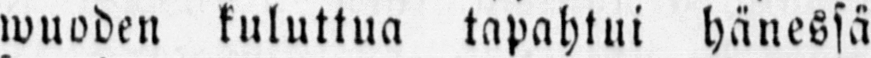wuoden kuluttua tapahtui hänessä
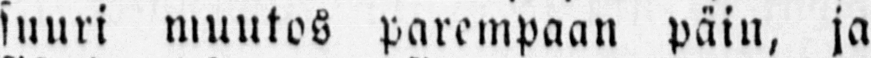suuri muutos parempaan päin, ja
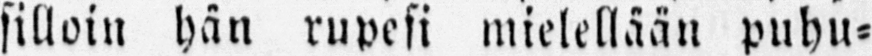silloin hän rupesi mielellään puhu-
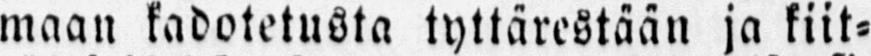maan kadotetusta tyttärestään ja kiit-
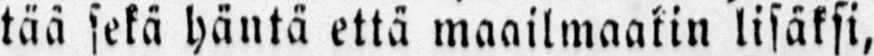tää sekä häntä että maailmaakin lisäksi,
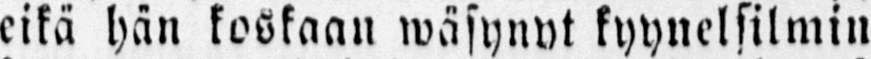eikä hän koskaan wäsynyt kyynelsilmin
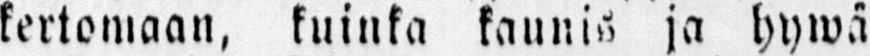kertomaan, kuinka kaunis ja hywä
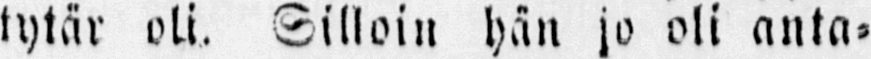tytär oli. Silloin hän jo oli anta-
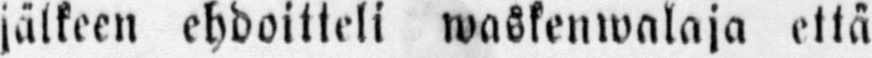jälkeen ehdoitteli waskenwalaja että
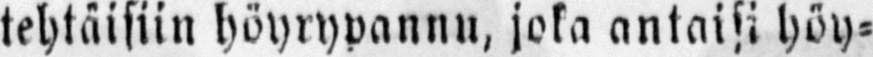tehtäisiin höyrypannu, joka antaisi höy-
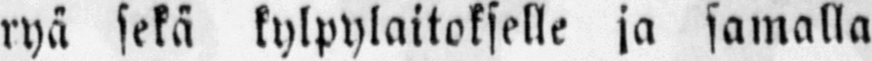ryä sekä kylpylaitokselle ja samalla
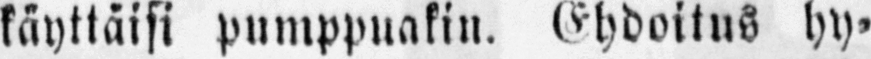käyttäisi pumppuakin. Ehdoitus hy-
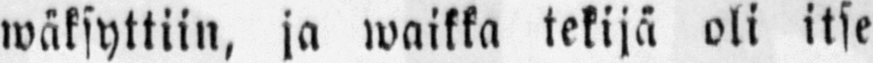wäksyttiin, ja waikka tekijä oli itse
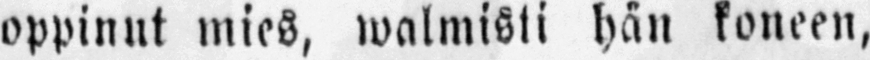oppinut mies, walmisti hän koneen,
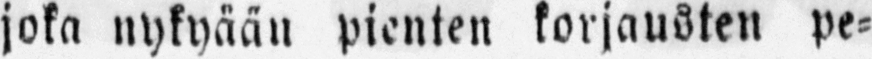joka nykyään pienten korjausten pe-
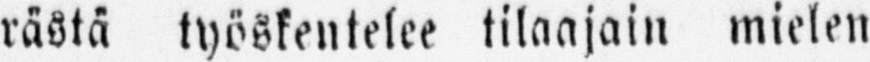rästä työskentelee tilaajain mielen
